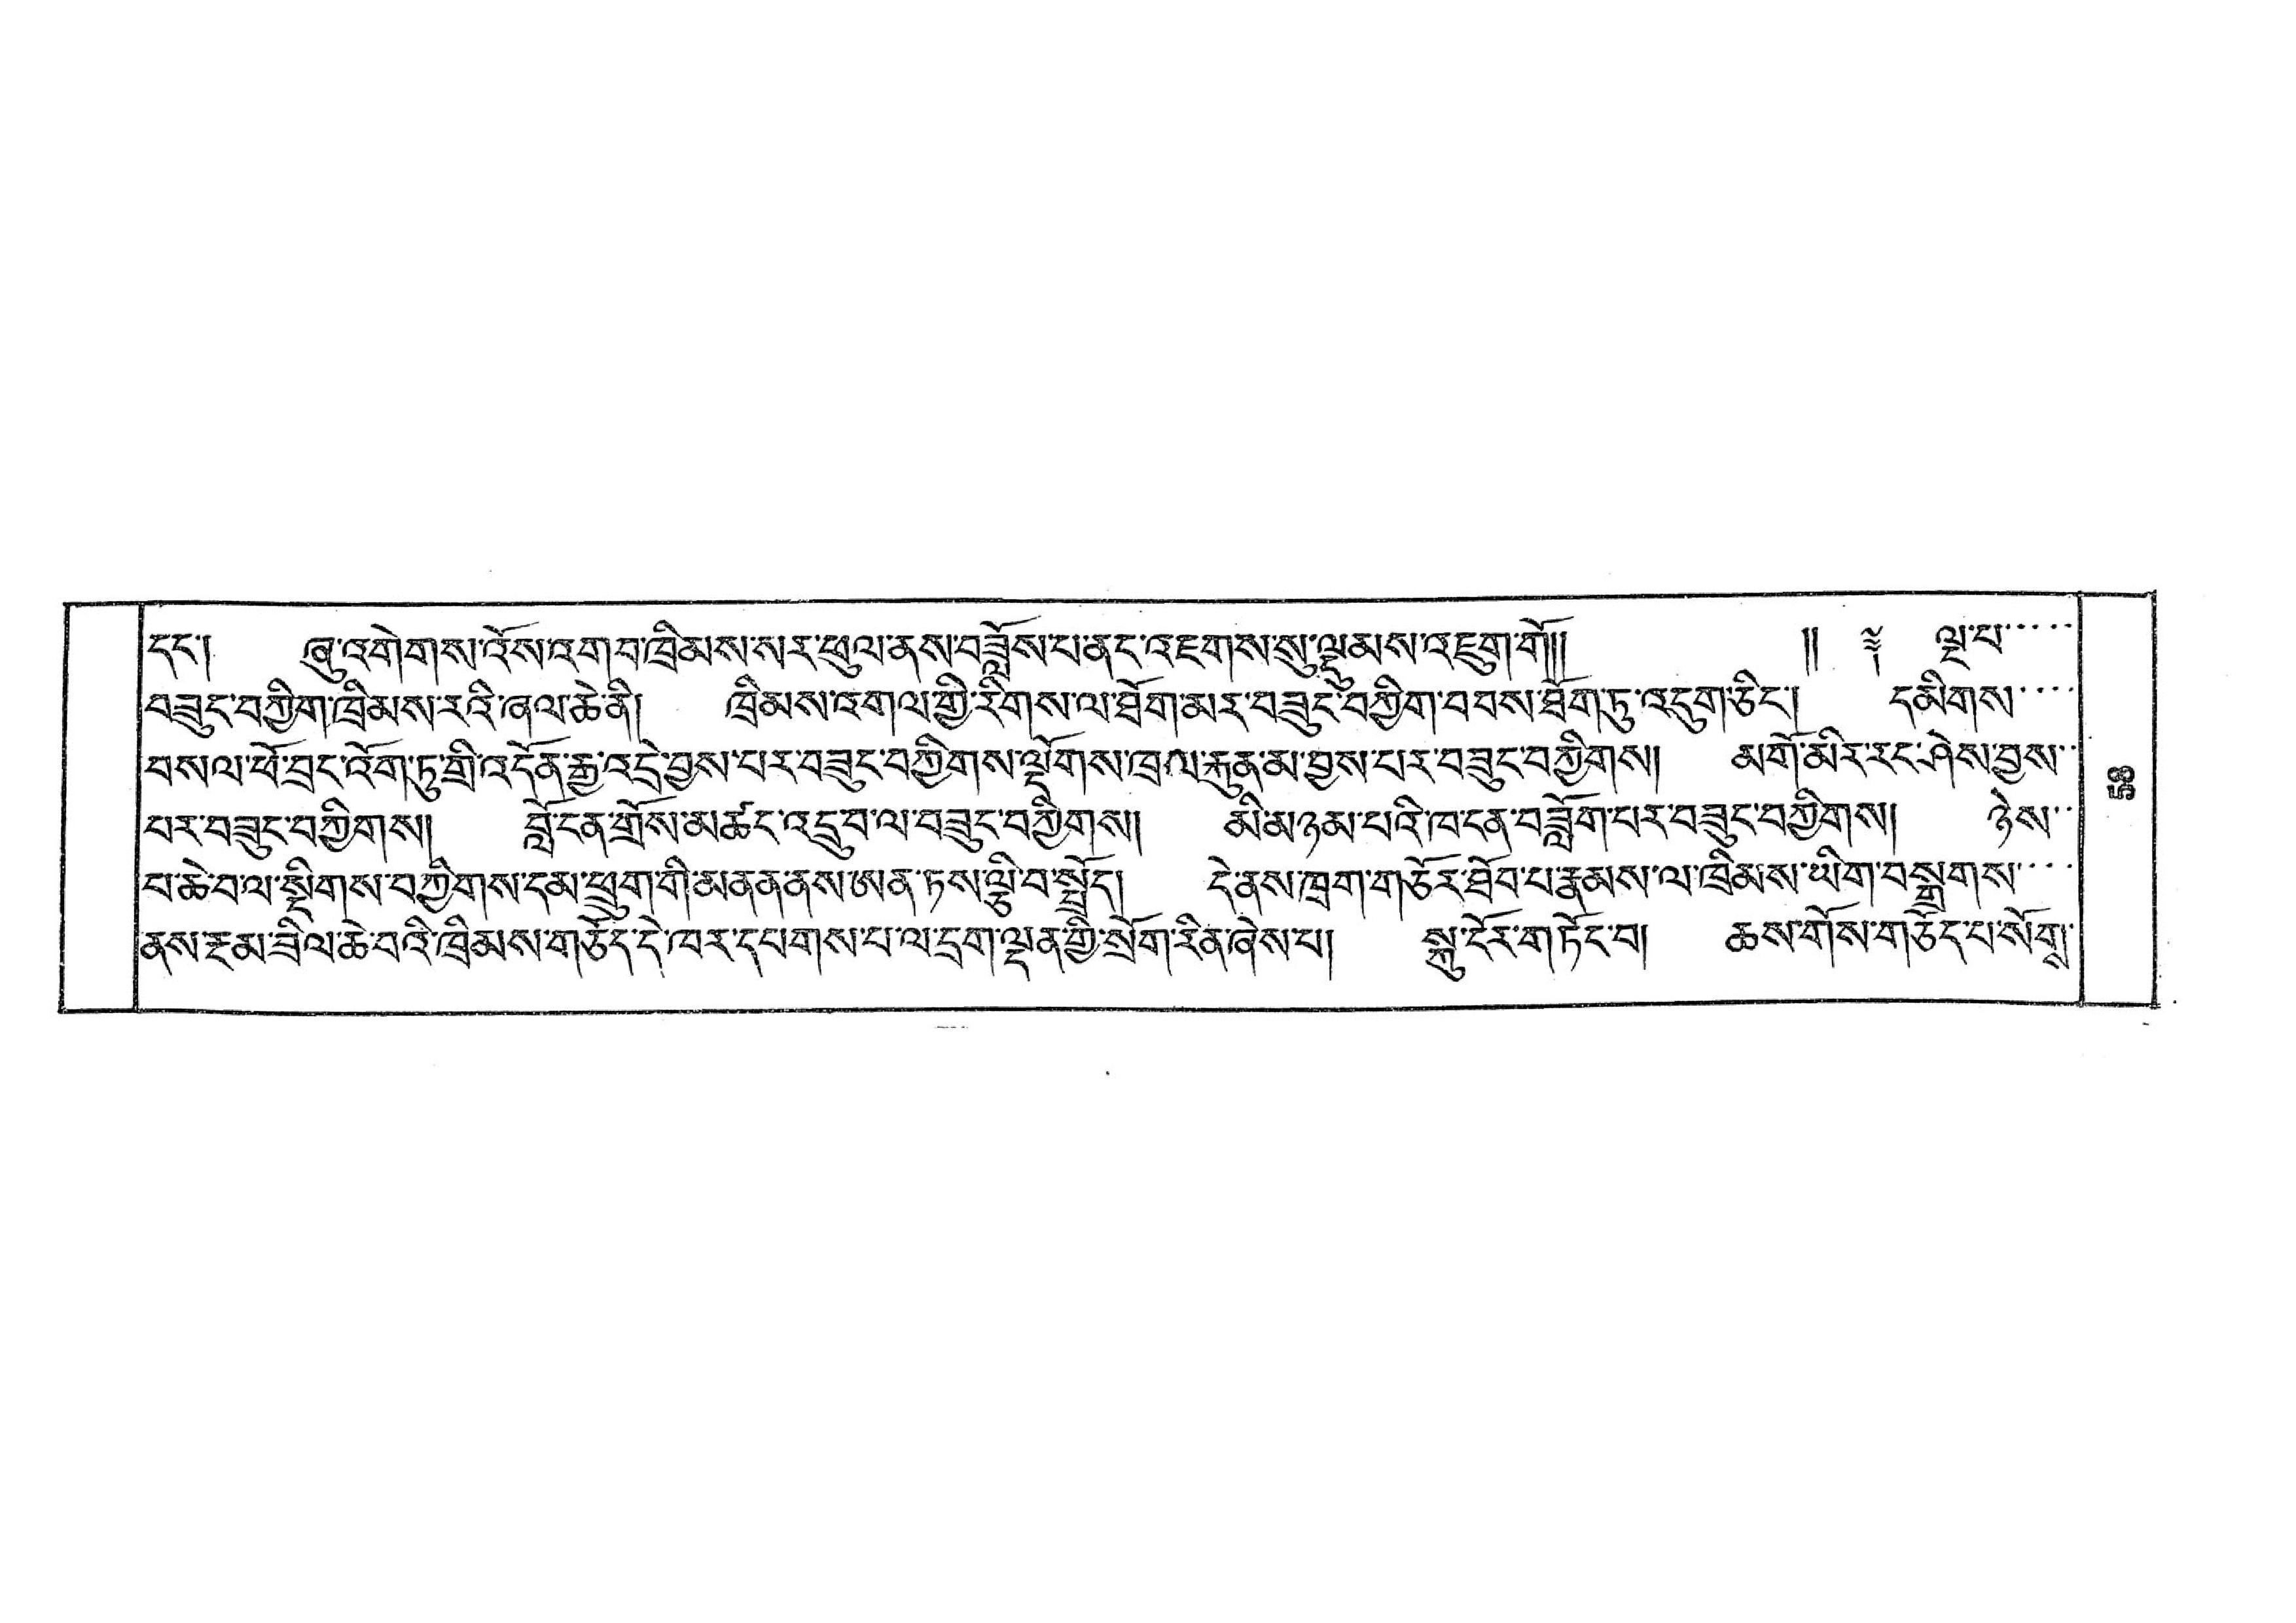དང་། ཞུ་འགེགས་འོས་འགབ་ཁྲིམས་སར་ཕུལ་ནས་བཟློས་པ་ནང་འཇགས་སུ་ལྡུམས་འཇུག་གོ།།  །། ༈ ལྔ་པ་་་་་
བཟུང་བཀྱིག་ཁྲིམས་རའི་ཞལ་ཆེ་ནི། ཁྲིམས་འགལ་གྱི་རིགས་ལ་ཐོག་མར་བཟུང་བཀྱིག་བབས་ཐོག་ཏུ་འདུག་ཅིང་། དམིགས་་་་
བསལ་ཕོ་བྲང་འོག་ཏུ་གྲི་འདོན་རྒྱ་འདྲེ་བྱས་པར་བཟུང་བཀྱིགས་ལྡོགས་ཁྲལ་རྐུན་མ་བྱས་པར་བཟུང་བཀྱིགས། མགོ་མིར་རང་ཤེས་བྱས་
པར་བཟུང་བཀྱིགས། བློ་ངན་གྲོས་མཚང་འདྲུ་བ་ལ་བཟུང་བཀྱིགས། མི་མཉམ་པའི་ཁ་ངན་བཟློག་པར་བཟུང་བཀྱིགས། ཉེས་་
པ་ཆེ་བ་ལ་སྡིགས་བཀྱིགས་དམ་ཕྲུག་གི་མནན་ནས་ཨན་ཏས་ལྕི་བ་སྤྲོད། དེ་ནས་ཁྲག་གཅོར་ཐོབ་པ་རྣམས་ལ་ཁྲིམས་ཡིག་བསྒྲགས་་་་
ནས་རྔམ་ཟིལ་ཆེ་བའི་ཁྲིམས་གཅོད་དེ་ཁར་དཔགས་པ་ལ་དྲག་ལྡན་གྱི་སྲོག་རིན་ཞེས་པ། སྐུ་ངོར་གཏོང་བ། ཆོས་གོས་གཅོད་པ་སོགས་
